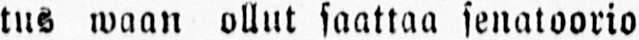tus waan ollut saattaa senatoorio
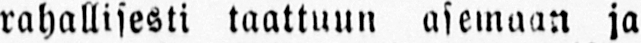rahallisesti taattuun asemaan ja
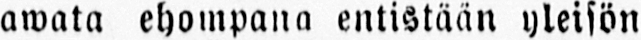awata ehompana entistään yleisön
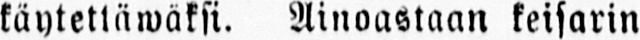käytettäwäksi. Ainoastaan keisarin
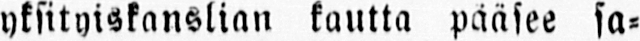yksityiskanslian kuutta pääsee sa-
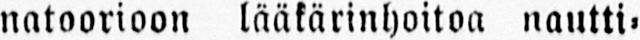natoorioon lääkärinhoitoa nautti-
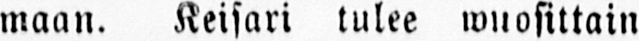maan. Keisari tulee wuoosittain
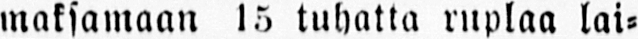maksamaan 15 tuhatta ruplaa lai-
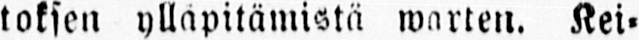toksen ylläpitämistä warten. Kei-
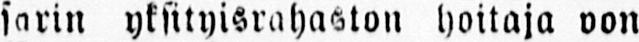sarin yksityisrahaston hoitaja von
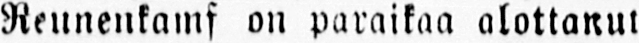Reunenkamf on paraikaa alottanut
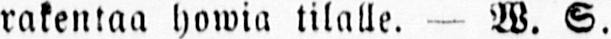rakentaa howia tilalle. — W. S.
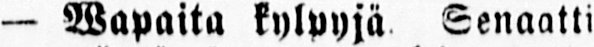— Wapaita kylpyjä Senaatti
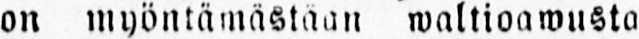on myöntämästaan waltioawusta
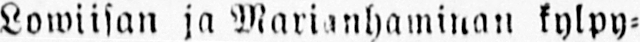Lowiisan ja Marianhaminan kylpy-
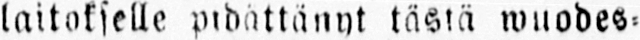laitokselle pidättänyt käsiä wuodes-
